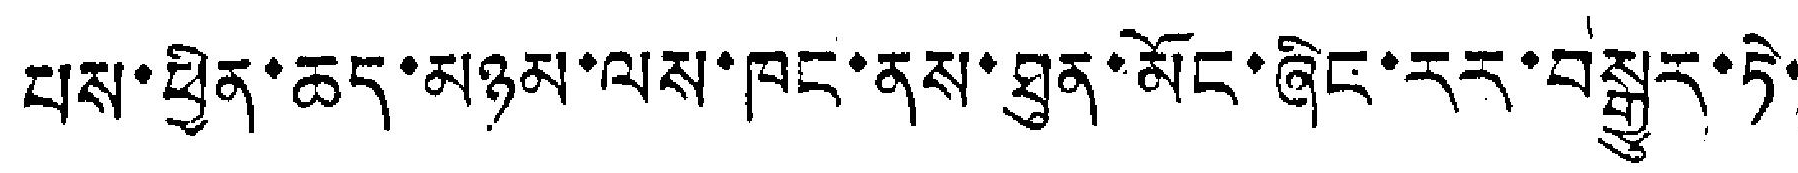པས་ཕྱིན་ཆད་མཉམ་ལས་ཁང་ནས་ཐུན་མོང་ཞིང་རར་བསྒྱུར་ཏེ་
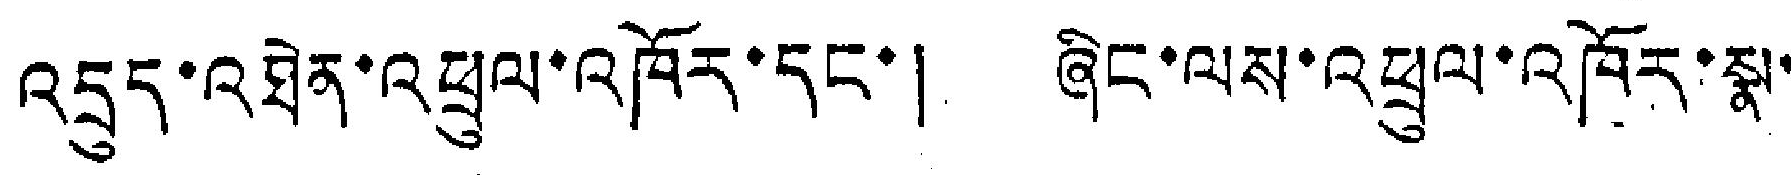འདྲུད་འཐེན་འཕྲལ་འཁོར་དང་། ཞིང་ལས་འཕྲུལ་འཁོར་སྣ་
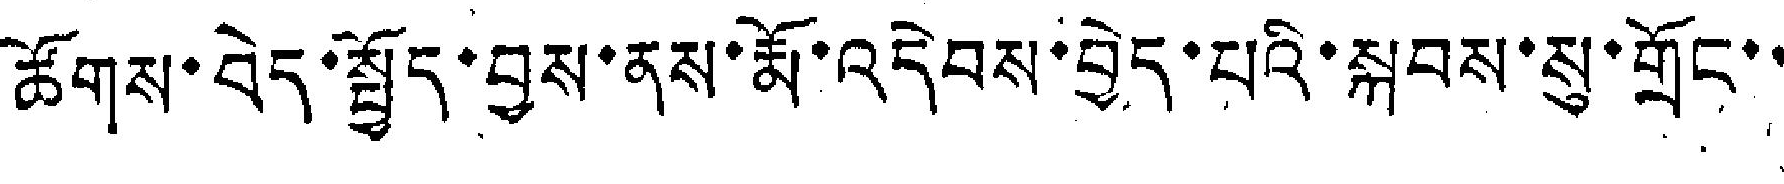ཚོགས་བྱེད་སྤྱོད་བྱས་ནས་རྨོ་འདེབས་བྱེད་པའི་སྐབས་སུ་གྲོང་་
